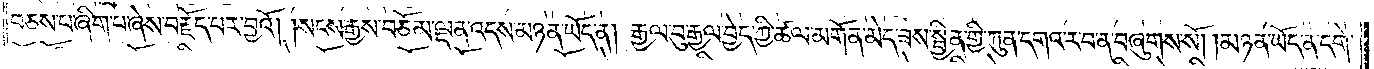བཅས་པ་ཞིག་པ་ཞེས་བརྗོད་པར་བྱའོ། །སངས་རྒྱས་བཅོམ་ལྡན་འདས་མཉན་ཡོད་ན། རྒྱལ་བུ་རྒྱལ་བྱེད་ཀྱི་ཚལ་མགོན་མེད་ཟས་སྦྱིན་གྱི་ཀུན་དགའ་ར་བ་ན་བཞུགས་སོ། །མཉན་ཡོད་ན་དགེ་
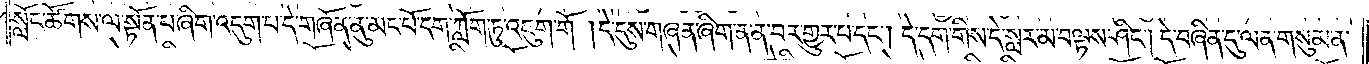སློང་ཚོགས་ལ་སྟོན་པ་ཞིག་འདུག་པ་དེ་གཞོན་ནུ་མང་པོ་དག་ཀློག་ཏུ་འཇུག་གོ །དེ་དུས་གཞན་ཞིག་ན་ན་བར་གྱུར་པ་དང༌། དེ་དག་གིས་དེ་སླར་མ་བལྟས་ཤིང༌། དེ་བཞིན་དུ་ལན་གསུམ་ན་
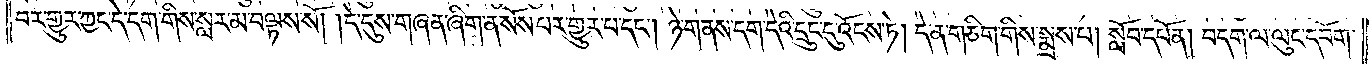པར་གྱུར་ཀྱང་དེ་དག་གིས་སླར་མ་བལྟས་སོ། །དེ་དུས་གཞན་ཞིག་ན་སོས་པར་གྱུར་པ་དང༌། ཉེ་གནས་དག་དེའི་དྲུང་དུ་འོངས་ཏེ། དེ་ན་གཅིག་གིས་སྨྲས་པ། སློབ་དཔོན། བདག་ལ་ལུང་དབོག་
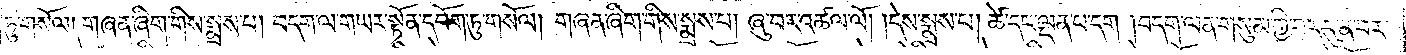ཏུ་གསོལ། གཞན་ཞིག་གིས་སྨྲས་པ། བདག་ལ་གཡར་སྟོན་དབོག་ཏུ་གསོལ། གཞན་ཞིག་གིས་སྨྲས་པ། ཞུ་བར་འཚལ་ལོ། །དེས་སྨྲས་པ། ཚེ་དང་ལྡན་པ་དག །བདག་ལན་གསུམ་གྱི་བར་དུ་ན་བར་
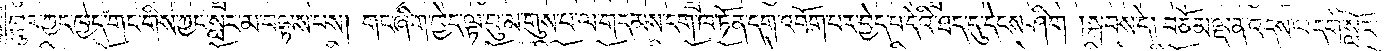གྱུར་ཀྱང་ཁྱེད་གང་གིས་ཀྱང་སླར་མ་བལྟས་པས། གང་ཞིག་ཁྱེད་ལྟ་བུ་མ་གུས་པ་ལ་གདམས་ངག་ཁ་ཏོན་དག་འབོག་པར་བྱེད་པ་དེའི་ཐད་དུ་དེངས་ཤིག །སྐབས་དེ། བཅོམ་ལྡན་འདས་ལ་དགེ་སློང་
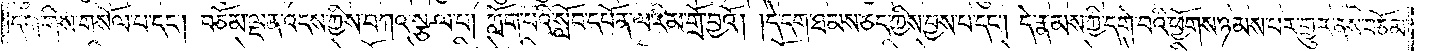དག་གིས་གསོལ་པ་དང༌། བཅོམ་ལྡན་འདས་ཀྱིས་བཀའ་སྩལ་པ། ཀློག་པའི་སློབ་དཔོན་ལ་རིམ་གྲོ་བྱའོ། །དེ་དག་ཐམས་ཅད་ཀྱིས་བྱས་པ་དང༌། དེ་རྣམས་ཀྱི་དགེ་བའི་ཕྱོགས་ཉམས་པར་གྱུར་ནས་བཅོམ་
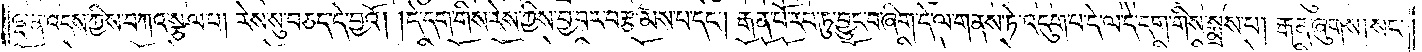ལྡན་འདས་ཀྱིས་བཀའ་སྩལ་པ། རེས་སུ་བཅད་དེ་བྱའོ། །དེ་དག་གིས་རེས་ཀྱིས་བྱ་བར་བརྩམས་པ་དང༌། རྒན་པོ་རབ་ཏུ་བྱུང་བ་ཞིག་དེ་ལ་གནས་ཏེ་འདུག་པ་དེ་ལ་དེ་དག་གིས་སྨྲས་པ། རྒན་ཞུགས། སང་
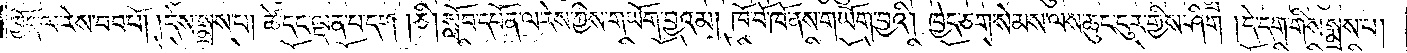ཁྱོད་ལ་རེས་བབ་པོ། །དེས་སྨྲས་པ། ཚེ་དང་ལྡན་པ་དག །ཅི། སློབ་དཔོན་ལ་རེས་ཀྱིས་གཡོག་བྱའམ། ཁོ་བོ་ཁོ་ནས་གཡོག་བྱའི། ཁྱེད་ཅག་སེམས་ལས་ཆུང་ངུར་གྱིས་ཤིག །དེ་དག་གིས་སྨྲས་པ།
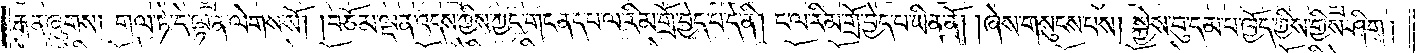རྒན་ཞུགས། གལ་ཏེ་དེ་ལྟ་ན་ལེགས་སོ། །བཅོམ་ལྡན་འདས་ཀྱིས་ཀྱང་གང་ནད་པ་ལ་རིམ་གྲོ་བྱེད་པ་དེ་ནི། ང་ལ་རིམ་གྲོ་བྱེད་པ་ཡིན་ནོ། །ཞེས་གསུངས་པས། སྐྱེས་བུ་དམ་པ་ཁྱོད་ཀྱིས་གྱིས་ཤིག །
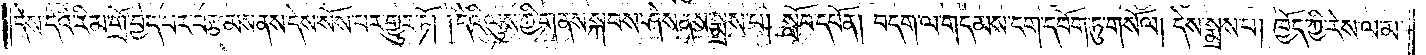དེས་དེའི་རིམ་གྲོ་བྱེད་པར་བརྩམས་ནས་དེས་སོས་པར་གྱུར་ཏོ། །དེའི་ལུས་ཀྱི་གནས་སྐབས་ཤེས་ནས་སྨྲས་པ། སློབ་དཔོན། བདག་ལ་གདམས་ངག་དབོག་ཏུ་གསོལ། དེས་སྨྲས་པ། ཁྱོད་རེས་ལམ་
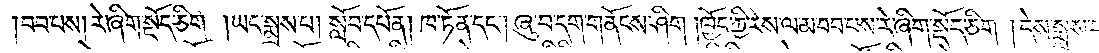བབ་པས། རེ་ཞིག་སྡོད་ཅིག །ཡང་སྨྲས་པ། སློབ་དཔོན། ཁ་ཏོན་དང༌། ཞུ་བ་དག་གནོངས་ཤིག །ཁྱོད་ཀྱི་རེས་ལམ་བབ་པས་རེ་ཞིག་སྡོད་ཅིག །དེས་སྨྲས་པ།
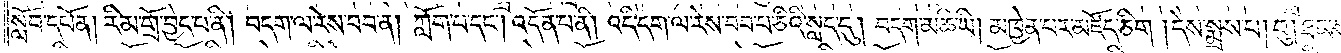སློབ་དཔོན། རིམ་གྲོ་བྱེད་པ་ནི། བདག་ལ་རེས་བབ་ན། ཀློག་པ་དང༌། འདོན་པ་ནི། འདི་དག་ལ་རེས་བབ་པ་ཅིའི་སླད་དུ། བདག་མཆི་ཡི། མཁྱེན་པར་མཛོད་ཅིག །དེས་སྨྲས་པ། བུ། ཐམས་
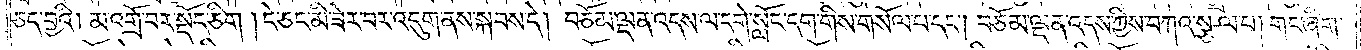ཅད་བྱའི། མ་འགྲོ་བར་སྡོད་ཅིག །དེ་ཅང་མི་ཟེར་བར་འདུག་ནས་སྐབས་དེ། བཅོམ་ལྡན་འདས་ལ་དགེ་སློང་དག་གིས་གསོལ་པ་དང༌། བཅོམ་ལྡན་འདས་ཀྱིས་བཀའ་སྩལ་པ། གང་ཞིག་
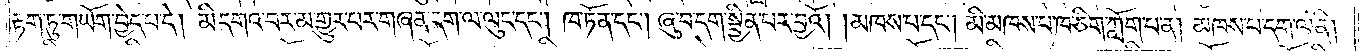རྟག་ཏུ་གཡོག་བྱེད་པ་དེ། མི་དགའ་བར་མ་གྱུར་པར་གཞན་དག་ལ་ལུང་དང༌། ཁ་ཏོན་དང༌། ཞུ་བ་དག་སྦྱིན་པར་བྱའོ། །མཁས་པ་དང༌། མི་མཁས་པ་ཁ་ཅིག་ཀློག་པ་ན། མཁས་པ་དག་ལ་ནི།
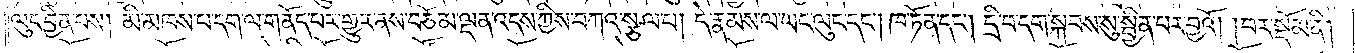ལུང་བྱིན་པས། མི་མཁས་པ་དག་ལ་གནོད་པར་གྱུར་ནས་བཅོམ་ལྡན་འདས་ཀྱིས་བཀའ་སྩལ་པ། དེ་རྣམས་ལ་ཡང་ལུང་དང༌། ཁ་ཏོན་དང༌། དྲི་བ་དག་སྐབས་སུ་སྦྱིན་པར་བྱའོ། །བར་སྡོམ་ནི།
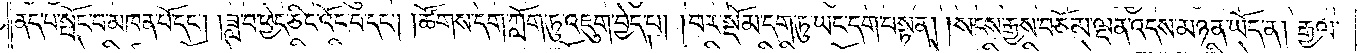ནད་པ་སྤོང་བ་མཁན་པོ་དང༌། །ཟླ་བ་ཕྱེད་ཅིང་འོང་བ་དང༌། །ཚོགས་དག་ཀློག་ཏུ་འཇུག་བྱེད་པ། །བར་སྡོམ་དག་ཏུ་ཡང་དག་བསྟན། །སངས་རྒྱས་བཅོམ་ལྡན་འདས་མཉན་ཡོད་ན། རྒྱལ་
